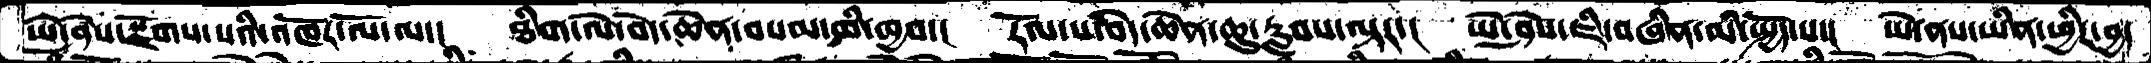ཡེ་ཤེས་སྫོགས་པའི་འཁོར་ལོ་ལ་།   ཐིག་ལེ་བདེ་ཆེན་བསམ་མི་ཁྱབ་།   རོལ་པ་བདེ་ཆེན་ཆུ་རླབས་ལྟར་།  ཡེ་ཤེས་ཇི་བཞིན་མི་སྤྱོད་པ་།  ཡེ་ནས་ཡིན་ཕྱིར་བྱ་
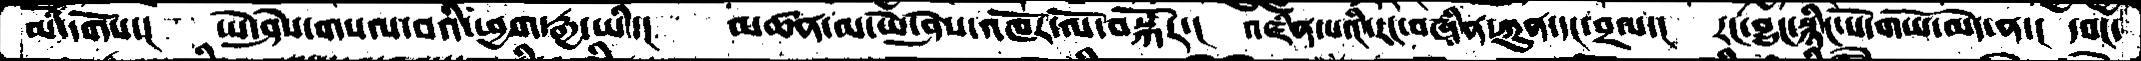མི་དགོས་།  ཡེ་ཤེས་གསལ་བའི་ཕྱག་རྒྱ་ཡི་།  མཚན་མ་ཡེ་ཤེས་འཁོར་ལོ་བསྐོར་།   འཛིན་པའི་རང་བཞིན་ཀུན་དང་བྲལ་།  རང་བྱུང་སྙིང་པོ་གཡོ་མེད་ན་།  དབང་
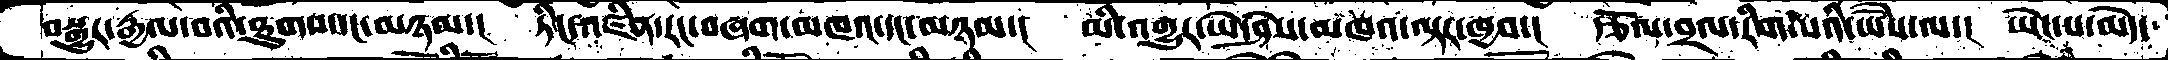བསྒྱུར་རྒྱལ་བའི་ཐུགས་དང་མཉམ་།   ཏིང་འཛིན་རང་བཞག་མཁའ་དང་མཉམ་།   མི་འགྱུར་ཡེ་ཤེས་མཁའ་ལྟར་ཁྱབ་།   རྩོལ་བྲལ་རིག་པའི་ཡཻས་ལ་།    ཡེང་པ་མེད་
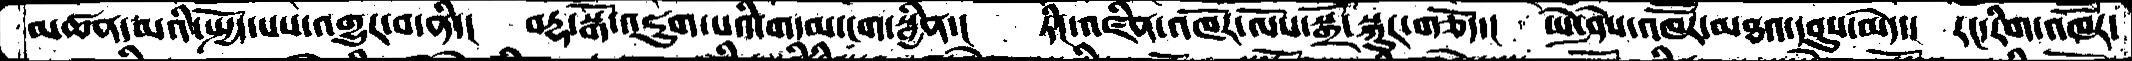མཚན་མའི་སྤྱོད་པས་འགྱུར་བ་ནི་།    བརྡ་སྒོ་འཇུག་པའི་གདམ་ངག་སྦྱིན་།    ཏིང་འཛིན་འཁོར་ལོས་སྒྲོ་སྐུར་གཅོད་།   ཡེ་ཤེས་འཁཽར་མཐའ་དབུས་མེད་།  རང་རིག་འཁོཽར་
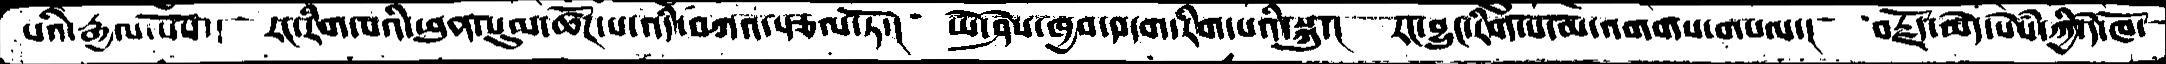པའི་རྒྱལ་པོས་།  རང་རིག་པའི་ཕུན་སུམ་ཚོཌ་པ་འདི་བཀའ་སྩལ་ཏོ་། ཡེ་ཤེས་ཁྱབ་བདག་རིག་པའི་སྐུ་།  རང་བྱུང་རིག་པ་མ་འགགས་གསལ་།  བརྗོད་མེད་སེཾས་ཀྱི་དེ་ཁོ་
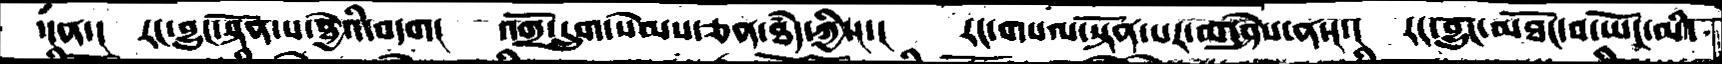་།ན་།  རང་བྱུང་སྟོན་པ་ཐྱེའི་བདག།  འགྲོ་དྲུག་སེམས་ཅན་ཐཾད་ཀྱིས་།  རང་གསལ་སྟོན་པར་མ་ཤེས་ནས་།  རང་བྱུང་མཐོང་བ་ཡོང་མི་
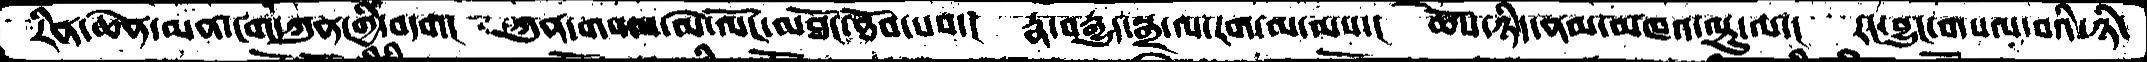རིན་ཆེན་མན་ངག་ཀུན་གྱི་བདག།  ཀུན་གསལ་མེ་ལོང་མཐོང་ཐོབ་པས་།  རྣ་བརྒྱུད་སྒྲ་ལ་རག་མ་ལས་།   ཆོས་ཉིད་ནམ་མཁའ་ལྟུ་ལ་།  རང་བྱུང་གསལ་བའི་ཉི་
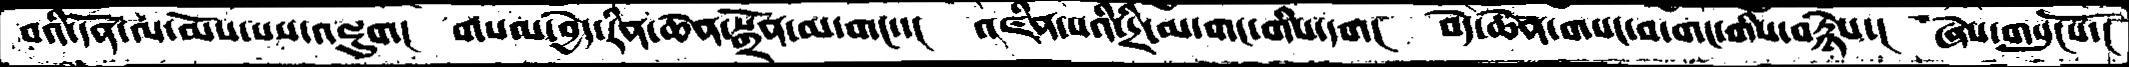བའི་དོན་ལ་མོས་པས་འཇུག།   གསལ་བྱེད་རིན་ཆེན་སྒྲོན་མ་གང་་།    འཛིན་པའི་དྲི་མ་གང་གིས་དག།   བདེ་ཆེན་གསང་བ་གང་གིས་བརྙེས་།    ཞེས་གསུངསོ་།
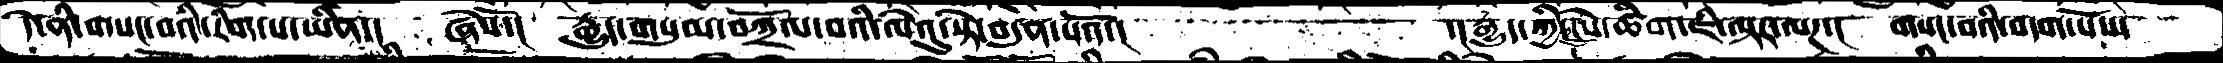དེ་ནི་གསང་བའི་རིག་པ་ཡིན་།   ཞེསོ་།  རྒྱུད་གསུམ་བཀྲོལ་བའི་ལེའུ་སྟེ་བདུན་པའོ་།       ་།རྒྱུད་ཀྱི་ངེས་ཚིག་ཇི་ལྟར་ལཌ་།  གསང་བའི་བདག་པོས་
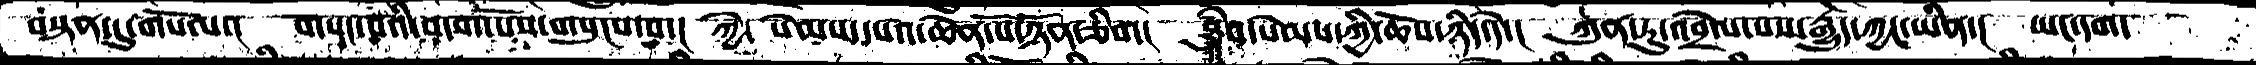བསྟན་དུ་གསོལ་།  གསང་བའི་བདག་པོས་གསུངས་པ་།  ཀྱེ་ སེམས་དཔའ་ཆེན་པོ་ཉོན་ཅིག།  བྱུཾབ་སེམས་ཀྱི་ཆོས་ཉིད་དེ་།  ཀུན་ཏུ་འབྲེལ་པས་རྒྱུད་ཀྱང་ཡིན་།  ཡང་དག་
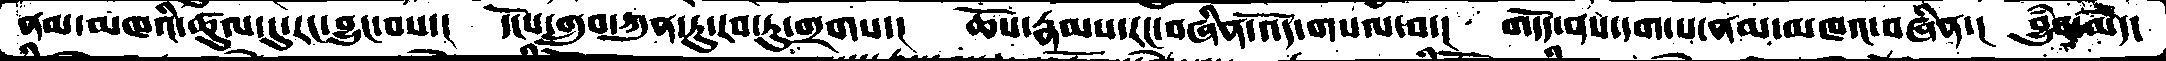ནམ་མཁའི་ཚུལ་དུ་རང་བྱུང་པས་།  དངོས་གྲུབ་ཀུན་ཏུ་རབ་ཏུ་གྲགས་།  ཆོས་རྣམས་རང་བཞིན་འོད་གསལ་བ་།  གདོད་ནས་དག་པ་ནམ་མཁའ་བཞིན་།  བྱུཾབ་མེད་
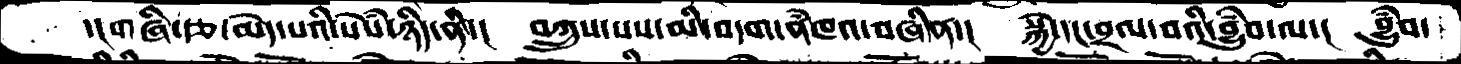་།གཞི་རྩ་མེད་པའི་སེསཾ་ཉིད་ནི་།  བཀྲུས་པས་མི་བདག་ནཾཁའ་བཞིན་།  སྐྱེ་དང་བྲལ་བའི་བྱུཾབ་ལ་།   བྱུཾབ་
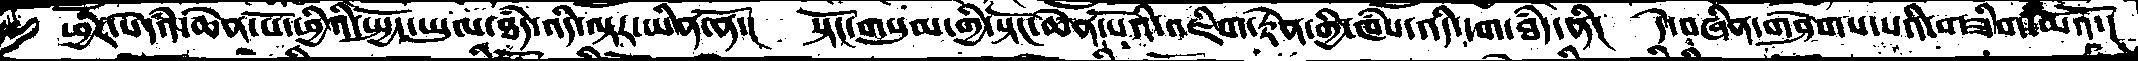ཕྱིར་སེདཾའ་ཆེན་པོ་ཕྱིའི་སྤྱོད་ཡུལ་ཐཾད་འདི་ལྟར་ཡིན་ནོ་།  སྟོང་གསུམ་གྱི་སྟོང་ཆེན་པོའི་འཇིག་རྟེན་གྱི་ཁཾས་འདི་དག་ཐཾད་ནི་།  དེ་བཞིན་གཤེགས་པའི་གཟིག་མོའོ་།
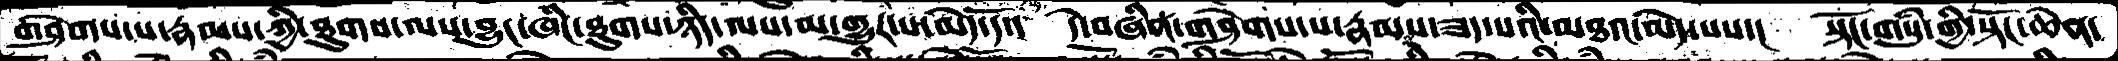གཤེགས་པ་རྣམས་ཀྱི་ཐུགས་ལས་བྱུང་ཞིང་ཐུགས་ཉིད་ལས་མ་གྱུར་པ་མེད་དོ་།  དེ་བཞིན་གཤེགས་པ་རྣམས་ཟད་པའི་མཐའ་མེད་པས་།  སྟོང་གསུཾ་གྱི་སྟོང་ཆེན་
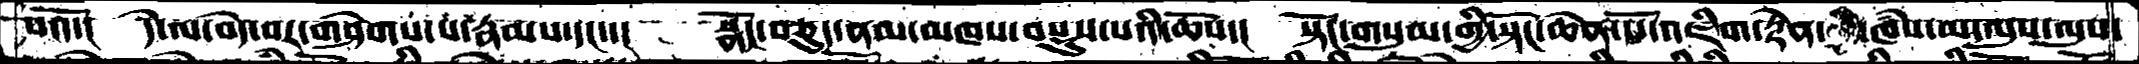པའོ་།   དེ་ལ་བདེ་བར་གཤེགས་པ་རྣམས་དང་་།  སྣོད་བཅུད་ནམ་མཁས་བསྡུས་པའི་ཆོས་།  སྟོང་གསུམ་གྱི་སྟོང་ཆེན་པོ་འཇིག་རྟེན་གྱི་ཁཾས་མ་ལུས་ལུས་
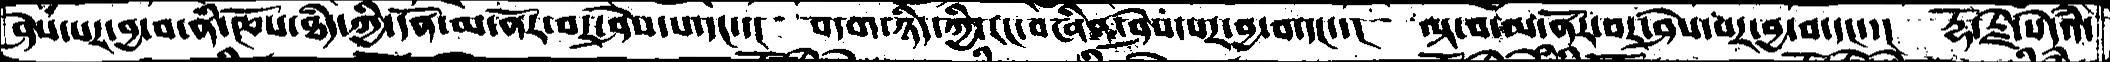ཤེས་པར་བྱ་བ་ནི་ཆོས་ཐཾད་ཀྱི་དོན་མ་ནོར་བར་ཤེས་པ་དང་་།  བདག་ཉིད་ཀྱི་རང་བཞིན་ཤེས་པར་བྱ་བ་དང་་།   ལྟ་བ་མ་ནོར་བར་ཤེས་པར་བྱ་བ་དང་་།  རྡོ་རྗེ་སེདཾའ་
